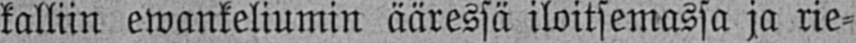kalliin ewankeliumin ääressä iloitsemassa ja rie-
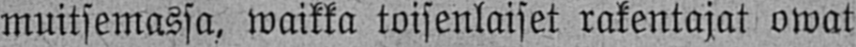muitsemassa, waikka toisenlaiset rakentajat owat
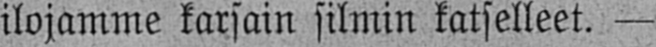ilojamme karsain silmin katselleet. —
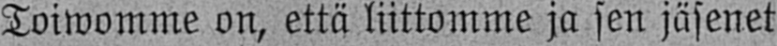Toiwomme on, että liittomme ja sen jäsenet
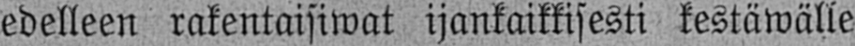edelleen rakentaisiwat ijankaikkisesti kestäwälle
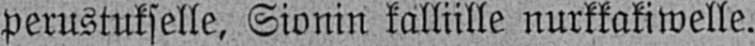perustukselle, Sionin kalliille nurkkakiwelle.
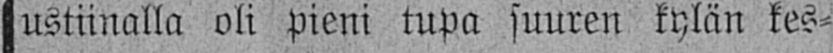Justiinalla oli pieni tupa suuren kylän kes-
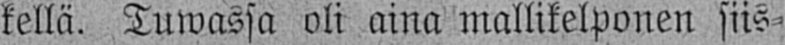kellä. Tuwassa oli aina mallikelponen siis-
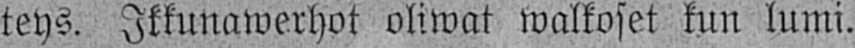teys. Ikkunawerhot oliwat walkoset kun lumi.
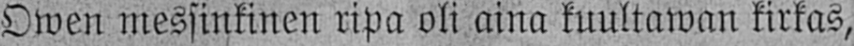Owen messinkinen ripa oli aina kuultawan kirkas,
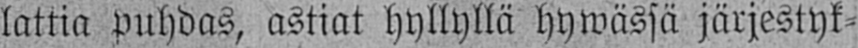lattia puhdas, astiat hyllyllä hywässä järjestyk-
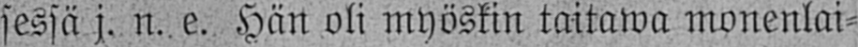sessä j. n. e. Hän oli myöskin taitawa monenlai-
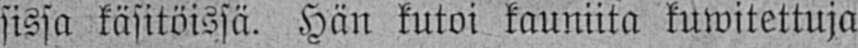sissa käsitöissä. Hän kutoi kauniita kuwitettuja
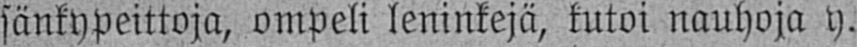sänkypeittoja, ompeli leninkejä, kutoi nauhoja y.
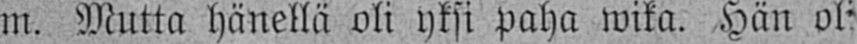m. Mutta hänellä oli yksi paha wika. Hän oli
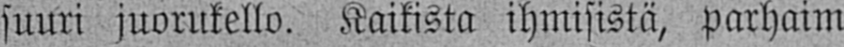suuri juorukello. Kaikista ihmisistä, parhaim-
